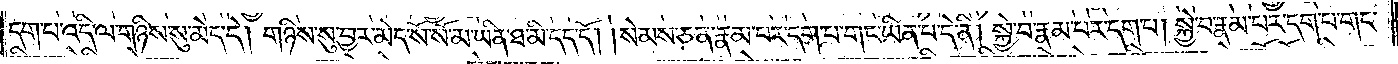དག་པ་འདི་ལ་གཉིས་སུ་མེད་དེ། གཉིས་སུ་བྱར་མེད་སོ་སོ་མ་ཡིན་ཐ་མི་དད་དོ། །སེམས་ཅན་རྣམ་པར་དག་པ་གང་ཡིན་པ་དེ་ནི། སྐྱེ་བ་རྣམ་པར་དག་པ། སྐྱེ་བ་རྣམ་པར་དག་པ་གང་
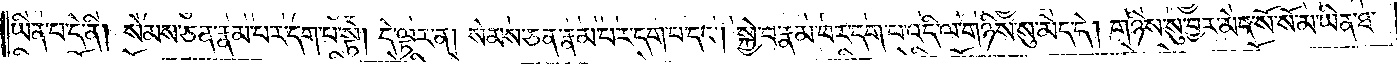ཡིན་པ་དེ་ནི། སེམས་ཅན་རྣམ་པར་དག་པ་སྟེ། དེ་ལྟར་ན། སེམས་ཅན་རྣམ་པར་དག་པ་དང༌། སྐྱེ་བ་རྣམ་པར་དག་པ་འདི་ལ་གཉིས་སུ་མེད་དེ། གཉིས་སུ་བྱར་མེད་སོ་སོ་མ་ཡིན་ཐ་
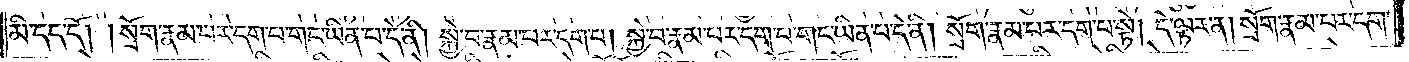མི་དད་དོ། །སྲོག་རྣམ་པར་དག་པ་གང་ཡིན་པ་དེ་ནི། སྐྱེ་བ་རྣམ་པར་དག་པ། སྐྱེ་བ་རྣམ་པར་དག་པ་གང་ཡིན་པ་དེ་ནི། སྲོག་རྣམ་པར་དག་པ་སྟེ། དེ་ལྟར་ན། སྲོག་རྣམ་པར་དག་
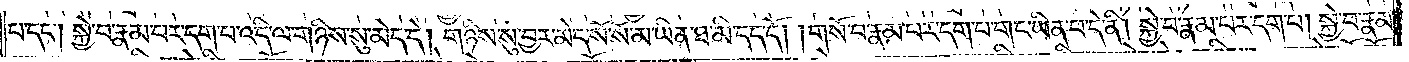པ་དང༌། སྐྱེ་བ་རྣམ་པར་དག་པ་འདི་ལ་གཉིས་སུ་མེད་དེ། གཉིས་སུ་བྱར་མེད་སོ་སོ་མ་ཡིན་ཐ་མི་དད་དོ། །གསོ་བ་རྣམ་པར་དག་པ་གང་ཡིན་པ་དེ་ནི། སྐྱེ་བ་རྣམ་པར་དག་པ། སྐྱེ་བ་རྣམ་
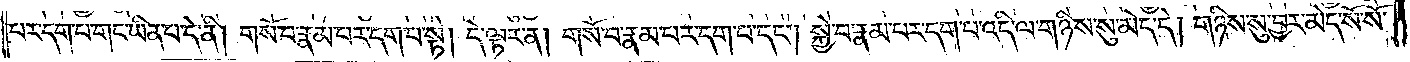པར་དག་པ་གང་ཡིན་པ་དེ་ནི། གསོ་བ་རྣམ་པར་དག་པ་སྟེ། དེ་ལྟར་ན། གསོ་བ་རྣ་པར་དག་པ་དང༌། སྐྱེ་བ་རྣམ་པར་དག་པ་འདི་ལ་གཉིས་སུ་མེད་དེ། གཉིས་སུ་བྱར་མེད་སོ་སོ་
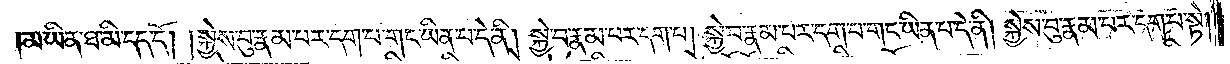མ་ཡིན་ཐ་མི་དད་དོ། །སྐྱེས་བུ་རྣམ་པར་དག་པ་གང་ཡིན་པ་དེ་ནི། སྐྱེ་བ་རྣམ་པར་དག་པ། སྐྱེ་བ་རྣམ་པར་དག་པ་གང་ཡིན་པ་དེ་ནི། སྐྱེས་བུ་རྣམ་པར་དག་པ་སྟེ།
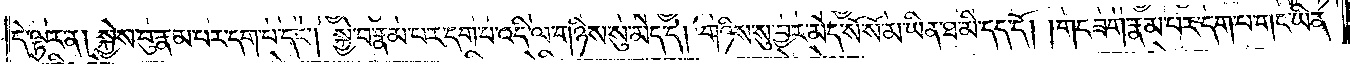དེ་ལྟར་ན། སྐྱེས་བུ་རྣམ་པར་དག་པ་དང༌། སྐྱེ་བ་རྣམ་པར་དག་པ་འདི་ལ་གཉིས་སུ་མེད་དེ། གཉིས་སུ་བྱར་མེད་སོ་སོ་མ་ཡིན་ཐ་མི་དད་དོ། །གང་ཟག་རྣམ་པར་དག་པ་གང་ཡིན་
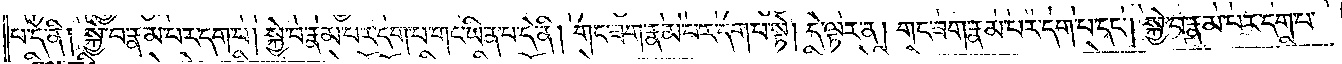པ་དེ་ནི། སྐྱེ་བ་རྣམ་པར་དག་པ། སྐྱེ་བ་རྣམ་པར་དག་པ་གང་ཡིན་པ་དེ་ནི། གང་ཟག་རྣམ་པར་དག་པ་སྟེ། དེ་ལྟར་ན། གང་ཟག་རྣམ་པར་དག་པ་དང༌། སྐྱེ་བ་རྣམ་པར་དག་པ་
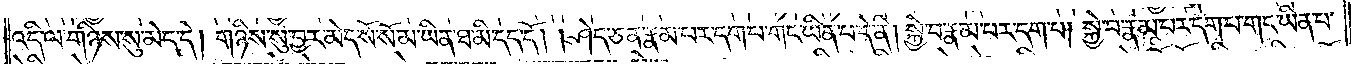འདི་ལ་གཉིས་སུ་མེད་དེ། གཉིས་སུ་བྱར་མེད་སོ་སོ་མ་ཡིན་ཐ་མི་དད་དོ། །ཤེད་ཅན་རྣམ་པར་དག་པ་གང་ཡིན་པ་དེ་ནི། སྐྱེ་བ་རྣམ་པར་དག་པ། སྐྱེ་བ་རྣམ་པར་དག་པ་གང་ཡིན་པ་
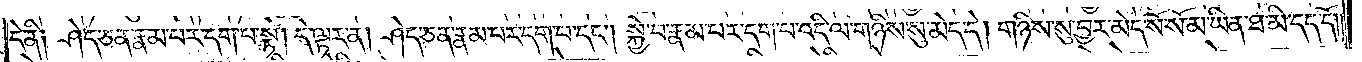དེ་ནི། ཤེད་ཅན་རྣམ་པར་དག་པ་སྟེ། དེ་ལྟར་ན། ཤེད་ཅན་རྣམ་པར་དག་པ་དང༌། སྐྱེ་བ་རྣམ་པར་དག་པ་འདི་ལ་གཉིས་སུ་མེད་དེ། གཉིས་སུ་བྱར་མེད་སོ་སོ་མ་ཡིན་ཐ་མི་དད་དོ། །
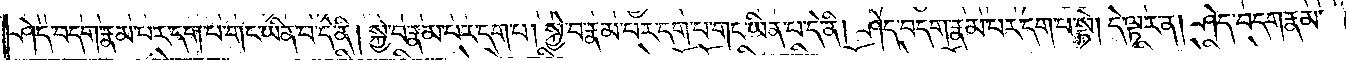ཤེད་བདག་རྣམ་པར་དག་པ་གང་ཡིན་པ་དེ་ནི། སྐྱེ་བ་རྣམ་པར་དག་པ། སྐྱེ་བ་རྣམ་པར་དག་པ་གང་ཡིན་པ་དེ་ནི། ཤེད་བདག་རྣམ་པར་དག་པ་སྟེ། དེ་ལྟར་ན། ཤེད་བདག་རྣམ་
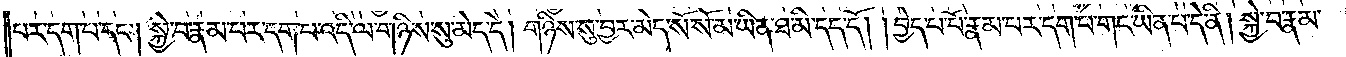པར་དག་པ་དང༌། སྐྱེ་བ་རྣམ་པར་དག་པ་འདི་ལ་གཉིས་སུ་མེད་དེ། གཉིས་སུ་བྱར་མེད་སོ་སོ་མ་ཡིན་ཐ་མི་དད་དོ། །བྱེད་པ་པོ་རྣམ་པར་དག་པ་གང་ཡིན་པ་དེ་ནི། སྐྱེ་བ་རྣམ་
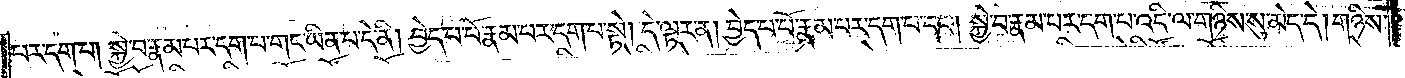པར་དག་པ། སྐྱེ་བ་རྣམ་པར་དག་པ་གང་ཡིན་པ་དེ་ནི། བྱེད་པ་པོ་རྣམ་པར་དག་པ་སྟེ། དེ་ལྟར་ན། བྱེད་པ་པོ་རྣམ་པར་དག་པ་དང༌། སྐྱེ་བ་རྣམ་པར་དག་པ་འདི་ལ་གཉིས་སུ་མེད་དེ། གཉིས་
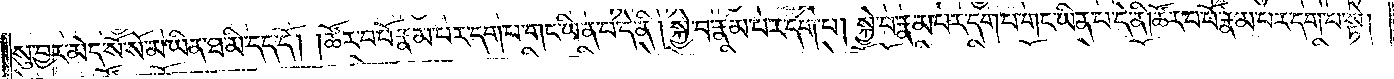སུ་བྱར་མེད་སོ་སོ་མ་ཡིན་ཐ་མི་དད་དོ། །ཚོར་བ་པོ་རྣམ་པར་དག་པ་གང་ཡིན་པ་དེ་ནི། སྐྱེ་བ་རྣམ་པར་དག་པ། སྐྱེ་བ་རྣམ་པར་དག་པ་གང་ཡིན་པ་དེ་ནི། ཚོར་བ་པོ་རྣམ་པར་དག་པ་སྟེ།
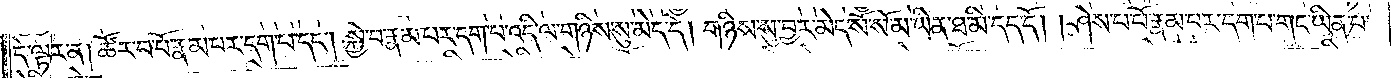དེ་ལྟར་ན། ཚོར་བ་པོ་རྣམ་པར་དག་པ་དང༌། སྐྱེ་བ་རྣམ་པར་དག་པ་འདི་ལ་གཉིས་སུ་མེད་དེ། གཉིས་སུ་བྱར་མེད་སོ་སོ་མ་ཡིན་ཐ་མི་དད་དོ། །ཤེས་པ་པོ་རྣམ་པར་དག་པ་གང་ཡིན་པ་
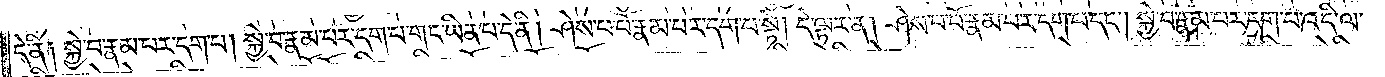དེ་ནི༑ སྐྱེ་བ་རྣམ་པར་དག་པ། སྐྱེ་བ་རྣམ་པར་དག་པ་གང་ཡིན་པ་དེ་ནི། ཤེས་པ་པོ་རྣམ་པར་དག་པ་སྟེ། དེ་ལྟར་ན། ཤེས་པ་པོ་རྣམ་པར་དག་པ་དང༌། སྐྱེ་བ་རྣམ་པར་དག་པ་འདི་ལ་
